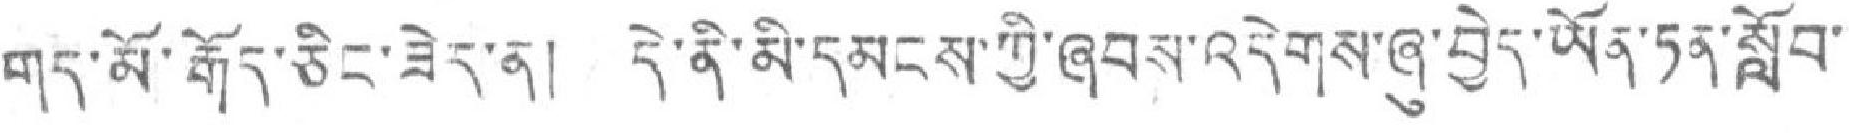གད་མོ་རྒོར་ཅིང་ཟེར་ན། དེ་ནི་མི་དམངས་ཀྱི་ཞབས་འདེགས་ཞུ་བྱེད་ཡོན་ཏན་སློབ་
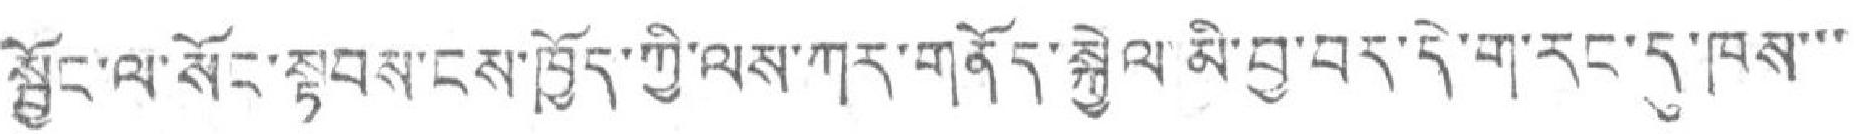སྦྱོང་ལ་སོང་སྟབས་ངས་ཁྱོད་ཀྱི་ལས་ཀར་གནོད་སྐྱེལ་མི་བྱ་བར་དེ་ག་དང་དུ་ཁས་་་
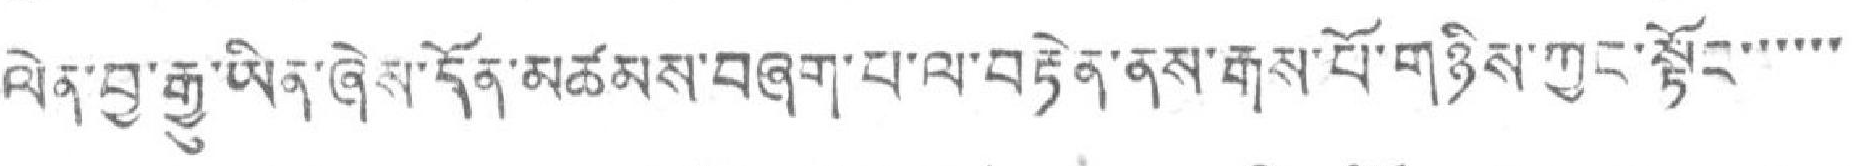ལེན་བྱ་རྒྱ་ཡིན་ཞེས་དོན་མཚམས་བཞག་པ་ལ་བརྟེན་ནས་རྒས་པོ་གཉིས་ཀྱང་སྟོང་་་་་་
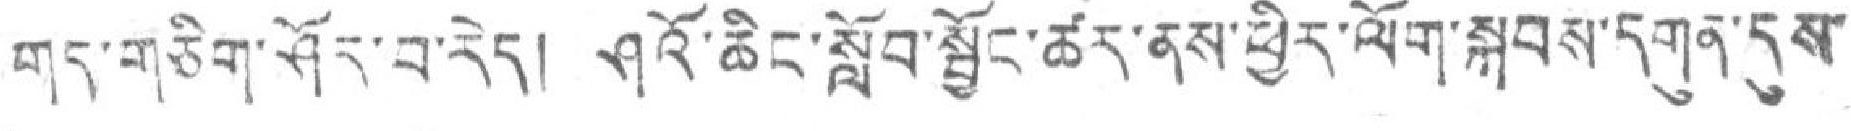གད་གཅིག་ཤོར་བ་རེད། ཤའོ་ཆིང་སློབ་སྦྱོང་ཚར་ནས་ཕྱིར་ལོག་སྐབས་དགུན་དུས་
